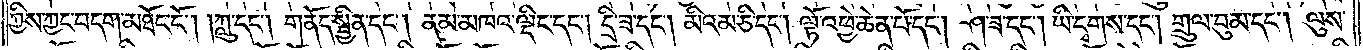ཀྱིས་ཀྱང་བདག་མཐོང་ངོ༌། །ཀླུ་དང༌། གནོད་སྦྱིན་དང༌། ནམ་མཁའ་ལྡིང་དང༌། དྲི་ཟ་དང༌། མིའམ་ཅི་དང༌། ལྟོ་འཕྱེ་ཆེན་པོ་དང༌། ཤ་ཟ་དང༌། ཡི་དྭགས་དང༌། གྲུལ་བུམ་དང༌། ལུས་
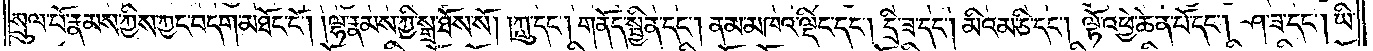སྲུལ་པོ་རྣམས་ཀྱིས་ཀྱང་བདག་མཐོང་ངོ༌། །ལྷ་རྣམས་ཀྱི་སྒྲ་ཐོས་སོ། །ཀླུ་དང༌། གནོད་སྦྱིན་དང༌། ནམ་མཁའ་ལྡིང་དང༌། དྲི་ཟ་དང༌། མིའམ་ཅི་དང༌། ལྟོ་འཕྱེ་ཆེན་པོ་དང༌། ཤ་ཟ་དང༌། ཡི་
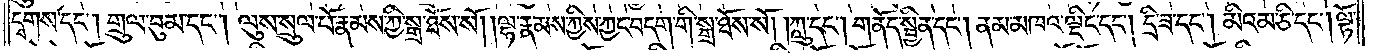དྭགས་དང༌། གྲུལ་བུམ་དང༌། ལུས་སྲུལ་པོ་རྣམས་ཀྱི་སྒྲ་ཐོས་སོ། །ལྷ་རྣམས་ཀྱིས་ཀྱང་བདག་གི་སྒྲ་ཐོས་སོ། །ཀླུ་དང༌། གནོད་སྦྱིན་དང༌། ནམ་མཁའ་ལྡིང་དང༌། དྲི་ཟ་དང༌། མིའམ་ཅི་དང༌། ལྟོ་
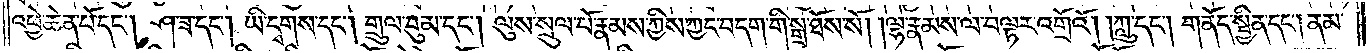འཕྱེ་ཆེན་པོ་དང༌། ཤ་ཟ་དང༌། ཡི་དྭགས་དང༌། གྲུལ་བུམ་དང༌། ལུས་སྲུལ་པོ་རྣམས་ཀྱིས་ཀྱང་བདག་གི་སྒྲ་ཐོས་སོ། །ལྷ་རྣམས་ལ་བལྟར་འགྲོའོ། །ཀླུ་དང༌། གནོད་སྦྱིན་དང༌། ནམ་
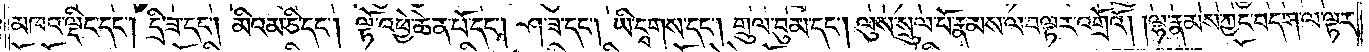མཁའ་ལྡིང་དང༌། དྲི་ཟ་དང༌། མིའམ་ཅི་དང༌། ལྟོ་འཕྱེ་ཆེན་པོ་དང༌། ཤ་ཟ་དང༌། ཡི་དྭགས་དང༌། གྲུལ་བུམ་དང༌། ལུས་སྲུལ་པོ་རྣམས་ལ་བལྟར་འགྲོའོ། །ལྷ་རྣམས་ཀྱང་བདག་ལ་ལྟར་
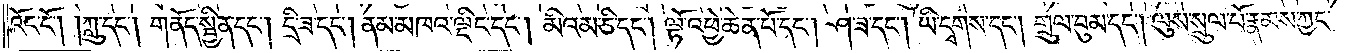འོང་ངོ༌། །ཀླུ་དང༌། གནོད་སྦྱིན་དང༌། དྲི་ཟ་དང༌། ནམ་མཁའ་ལྡིང་དང༌། མིའམ་ཅི་དང༌། ལྟོ་འཕྱེ་ཆེན་པོ་དང༌། ཤ་ཟ་དང༌། ཡི་དྭགས་དང༌། གྲུལ་བུམ་དང༌། ལུས་སྲུལ་པོ་རྣམས་ཀྱང་
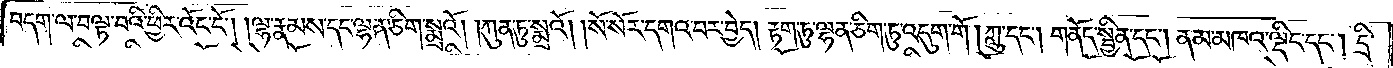བདག་ལ་བལྟ་བའི་ཕྱིར་འོང་ངོ༌། །ལྷ་རྣམས་དང་ལྷན་ཅིག་སྨྲའོ། །ཀུན་ཏུ་སྨྲའོ། །སོ་སོར་དགའ་བར་བྱེད། རྟག་ཏུ་ལྷན་ཅིག་ཏུ་འདུག་གོ། །ཀླུ་དང༌། གནོད་སྦྱིན་དང༌། ནམ་མཁའ་ལྡིང་དང༌། དྲི་
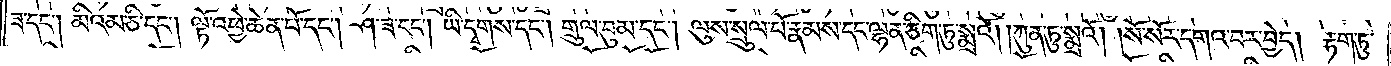ཟ་དང༌། མིའམ་ཅི་དང༌། ལྟོ་འཕྱེ་ཆེན་པོ་དང༌། ཤ་ཟ་དང༌། ཡི་དྭགས་དང༌། གྲུལ་བུམ་དང༌། ལུས་སྲུལ་པོ་རྣམས་དང་ལྷན་ཅིག་ཏུ་སྨྲའོ། །ཀུན་ཏུ་སྨྲའོ། །སོ་སོར་དགའ་བར་བྱེད། རྟག་ཏུ་
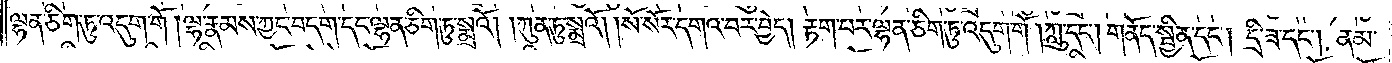ལྷན་ཅིག་ཏུ་འདུག་གོ །ལྷ་རྣམས་ཀྱང་བདག་དང་ལྷན་ཅིག་ཏུ་སྨྲའོ། །ཀུན་ཏུ་སྨྲའོ། །སོ་སོར་དགའ་བར་བྱེད། རྟག་པར་ལྷན་ཅིག་ཏུ་འདུག་གོ །ཀླུ་དང༌། གནོད་སྦྱིན་དང༌། དྲི་ཟ་དང༌། ནམ་
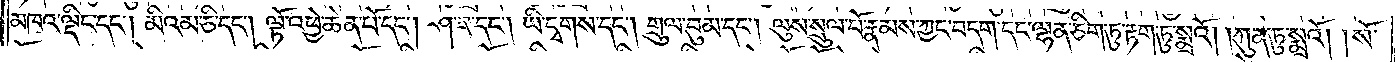མཁའ་ལྡིང་དང༌། མིའམ་ཅི་དང༌། ལྟོ་འཕྱེ་ཆེན་པོ་དང༌། ཤ་ཟ་དང༌། ཡི་དྭགས་དང༌། གྲུལ་བུམ་དང༌། ལུས་སྲུལ་པོ་རྣམས་ཀྱང་བདག་དང་ལྷན་ཅིག་ཏུ་རྟག་ཏུ་སྨྲའོ། །ཀུན་ཏུ་སྨྲའོ། །སོ་
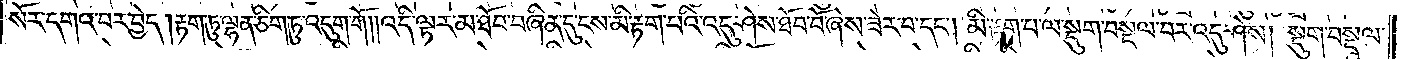སོར་དགའ་བར་བྱེད། རྟག་ཏུ་ལྷན་ཅིག་ཏུ་འདུག་གོ། །འདི་ལྟར་མ་ཐོབ་བཞིན་དུ་ངས་མི་རྟག་པའི་འདུ་ཤེས་ཐོབ་བོ་ཞེས་ཟེར་བ་དང༌། མི་རྟག་པ་ལ་སྡུག་བསྔལ་བར་འདུ་ཤེས། སྡུག་བསྔལ་
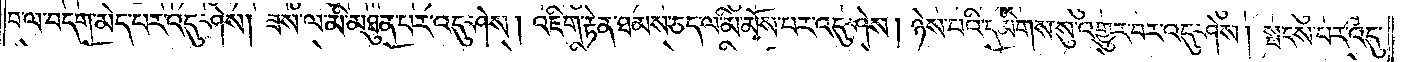བ་ལ་བདག་མེད་པར་འདུ་ཤེས། ཟས་ལ་མི་མཐུན་པར་འདུ་ཤེས། འཇིག་རྟེན་ཐམས་ཅད་ལ་མི་མོས་པར་འདུ་ཤེས། ཉེས་པའི་དམིགས་སུ་འགྱུར་བར་འདུ་ཤེས། སྤངས་པར་འདུ་
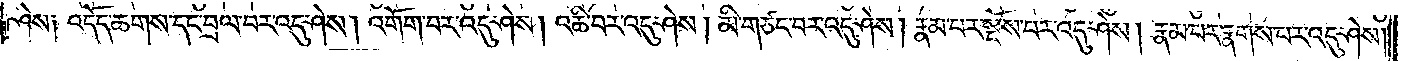ཤེས། འདོད་ཆགས་དང་བྲལ་བར་འདུ་ཤེས། འགོག་པར་འདུ་ཤེས། འཆི་བར་འདུ་ཤེས། མི་གཙང་བར་འདུ་ཤེས། རྣམ་པར་སྔོས་པར་འདུ་ཤེས། རྣམ་པར་རྣགས་པར་འདུ་ཤེས།
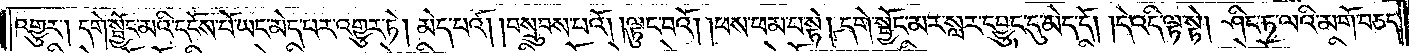འགྱུར། དགེ་སྦྱོང་མའི་དངོས་པོ་ཡང་མེད་པར་འགྱུར་ཏེ། མེད་པའོ། །བསྲུབས་པའོ། །ལྟུང་བའོ། །ཕས་ཕམ་པ་སྟེ། དགེ་སྦྱོང་མར་སླར་དབྱུང་དུ་མེད་དོ། །དེ་འདི་ལྟ་སྟེ། ཤིང་ཏ་ལའི་མགོ་བཅད་
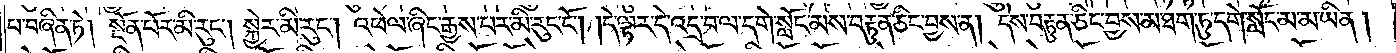པ་བཞིན་ཏེ། སྔོན་པོར་མི་རུང༌། སྐྱེར་མི་རུང༌། འཕེལ་ཞིང་རྒྱས་པར་མི་རུང་ངོ༌། །དེ་ལྟར་དེ་འདྲ་བ་ལ་དགེ་སློང་མས་བརྟུན་ཅིང་བྱས་ན། དེས་བརྟུན་ཅིང་བྱས་མ་ཐག་ཏུ་དགེ་སློང་མ་མ་ཡིན།
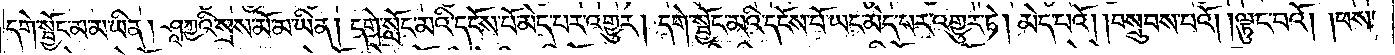དགེ་སྦྱོང་མ་མ་ཡིན། ཤཱཀྱའི་སྲས་མོ་མ་ཡིན། དགེ་སློང་མའི་དངོས་པོ་མེད་པར་འགྱུར། དགེ་སྦྱོང་མའི་དངོས་པོ་ཡང་མེད་པར་འགྱུར་ཏེ། མེད་པའོ། །བསྲུབས་པའོ། །ལྟུང་བའོ། །ཕས་
